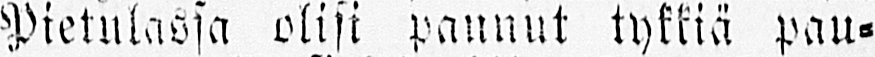Pietulassa olisi pannut tykkiä pau-
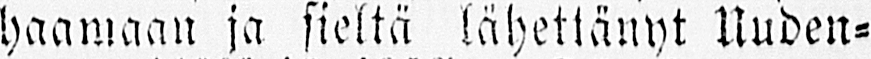haamaan ja sieltä lähettänyt Uuden-
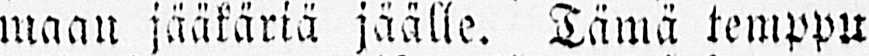maan jääkäriä jäälle. Tämä temppu
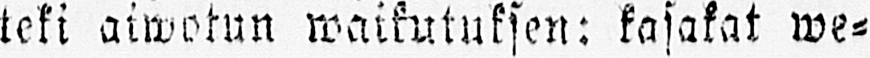teki aiwotun waikutuksen: kasakat we-
